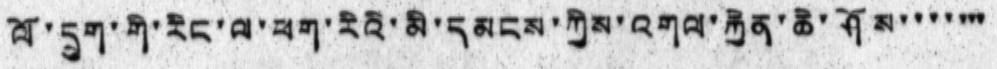ལོ་དྲུག་གི་རིང་ལ་ཕག་རིའི་མི་དམངས་ཀྱིས་འགལ་རྐྱེན་ཆེ་ཤོས་་་་་་
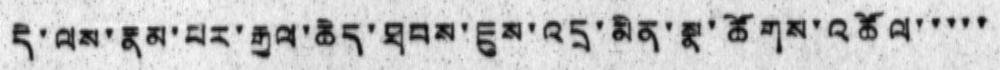དེ་ལས་རྣམ་པར་རྒྱལ་ཆེད་ཐབས་ཇུས་འདྲ་མིན་སྣ་ཚོགས་འཚོལ་་་་་
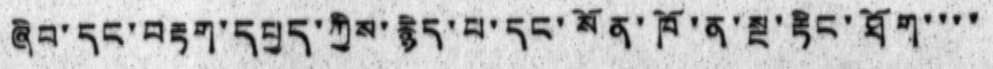ཞིབ་དང་བརྟག་དཔྱད་ཀྱིས་རྙེད་པ་དང་སོན་ཁོ་ན་སྔ་རྟིང་ཐོག་་་་
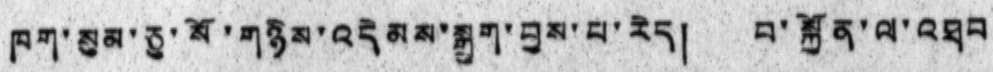ཁག་སུམ་ཅུ་སོ་གཉིས་འདེམས་སྒྲུག་བྱས་པ་རེད། བ་སྐྱོན་ལ་འཐབ
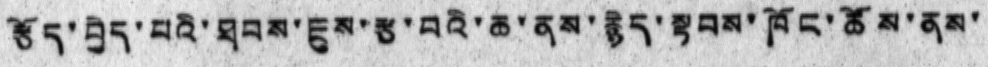རྩོད་བྱེད་པའི་ཐབས་ཇུས་རྩ་བའི་ཆ་ནས་རྙེད་སྟབས་ཁོང་ཚོས་ནས་
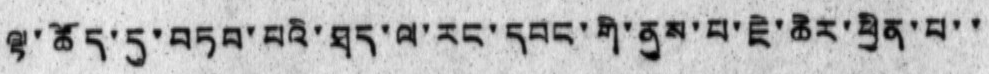ལྟ་ཚོད་དུ་བཏབ་བའི་ཐད་ལ་རང་དབང་གི་ནུས་པ་ཇེ་ཆེར་ཕྱིན་པ་་
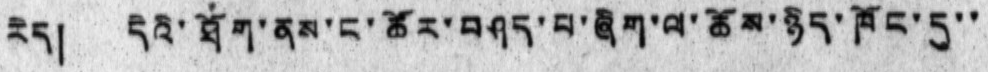རེད། དེའི་ཐོག་ནས་ང་ཚོར་བཤད་པ་ཞིག་ལ་ཆོས་ཉིད་ཁོང་དུ་་
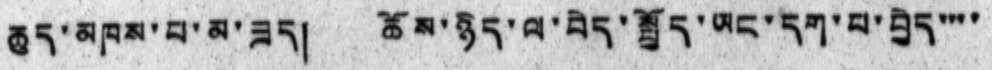ཆུད་མཁས་པ་མ་ཟད། ཆོས་ཉིད་ལ་བེད་སྤྱོད་ཡང་དག་པ་བྱེད་་་་
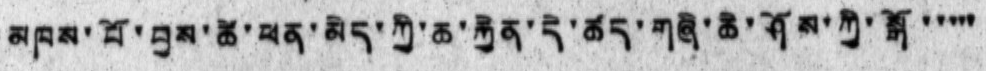མཁས་པོ་བྱས་ཚེ་ཕན་མེད་ཀྱི་ཆ་རྐྱེན་དེ་ཚད་གཞི་ཆེ་ཤོས་ཀྱི་སྒོ་་་་་
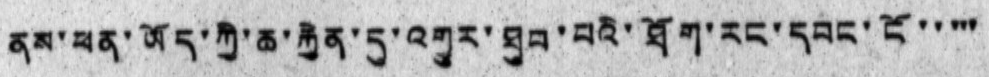ནས་ཕན་ཡོད་ཀྱི་ཆ་རྐྱེན་དུ་འགྱུར་ཐུབ་པའི་ཐོག་རང་དབང་ངོ་་་་་
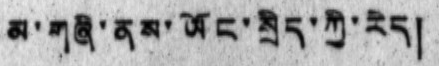མ་གཞི་ནས་ཡོང་སྲིད་ཀྱི་རེད།
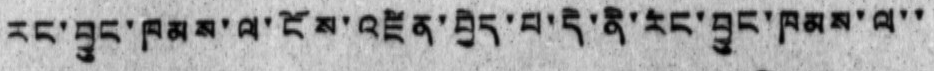རང་བྱུང་ཁམས་ལ་ངོས་འཛིན་བྱེད་པ་དེ་ནི་རང་བྱུང་ཁམས་ལ་་
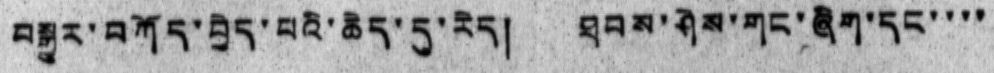བསྒྱུར་བཀོད་བྱེད་པའི་ཆེད་དུ་རེད། ཐབས་ཤེས་གང་ཞིག་དང་་་་
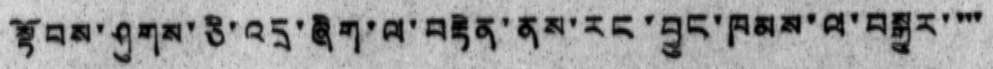སྟོབས་ཤུགས་ཅི་འདྲ་ཞིག་ལ་བརྟེན་ནས་རང་བྱུང་ཁམས་ལ་བསྒྱུར་་་་
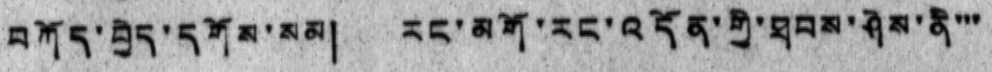བཀོད་བྱེད་དགོས་སམ། རང་མགོ་རང་འདོན་གྱི་ཐབས་ཤེས་ནི་་་
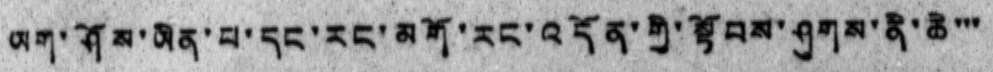ཡག་ཤོས་ཡིན་པ་དང་རང་མགོ་རང་འདོན་གྱི་སྟོབས་ཤུགས་ནི་ཆེ་་་
